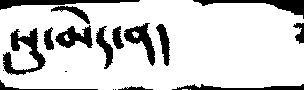སུ་མེད་ན།
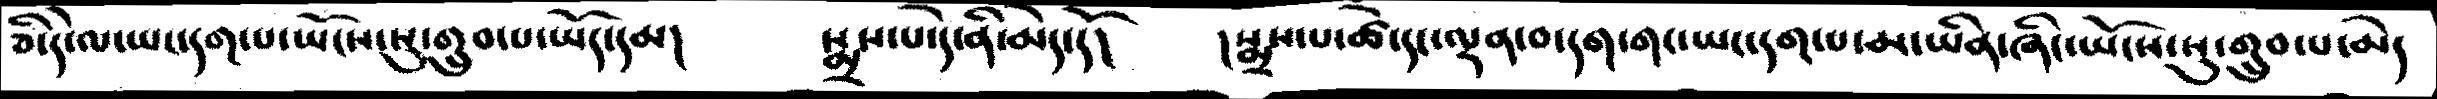ཅི་དེ་ལ་ཡང་དག་པ་ཡོངས་སུ་གྲུབ་པ་ཡོད་དམ།       སྨྲས་པ་དེ་ནི་མེད་དོ།    །སྨྲས་པ་ཚེ་དང་ལྡན་བ་དག་གང་ཡང་དག་པ་མ་ཡིན་ཞིང་ཡོངས་སུ་གྲུབ་པ་མེད
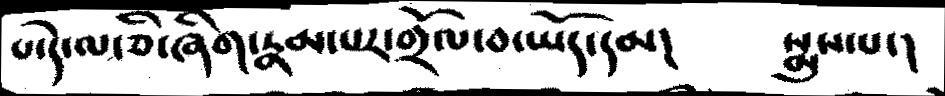པ་དེ་ལ་ཅི་ཞིག་རྣམ་པར་གྲོལ་བ་ཡོད་དམ།  སྨྲས་པ་།
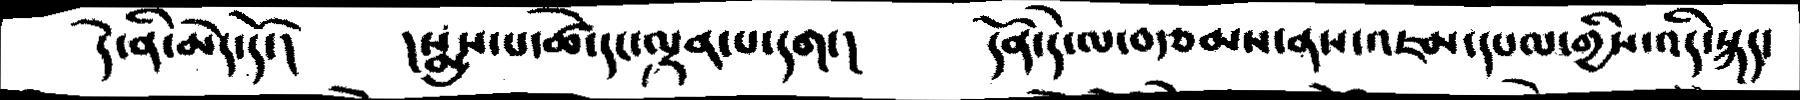དེ་ནི་མེད་དོ་།  །སྨྲས་པ་ཚེ་དང་ལྡན་པ་དག་།   དོན་དེ་ལ་བརྩམས་ནས་འཇམ་དཔལ་གྱིས་འདི་སྐད་
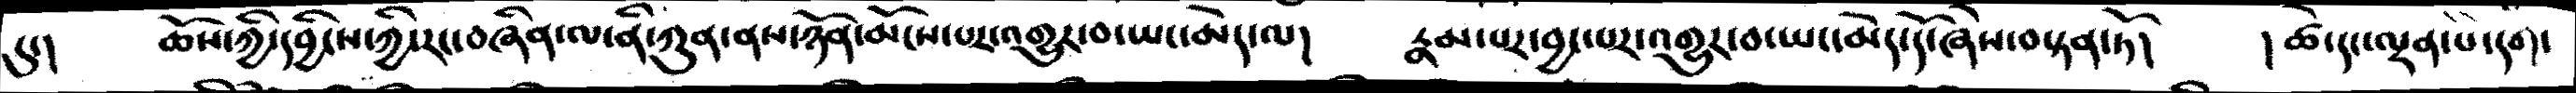དུ་།    ཆོས་ཀྱི་དབྱིངས་ཀྱི་རང་བཞིན་ལ་ནི་ཀུན་ནས་ཉོན་མོངས་པར་འགྱུར་བ་ཡང་མེད་ལ།    རྣམ་པར་བྱང་པར་འགྱུར་བ་ཡང་མེད་དོ་ཞེས་བསྟན་ཏོ།     །ཚེ་དང་ལྡན་པ་དག་
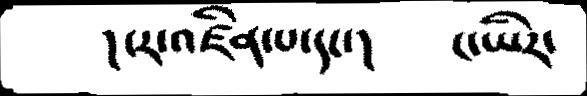། ངར་འཛིན་པ་དང་།   ང་ཡིར་
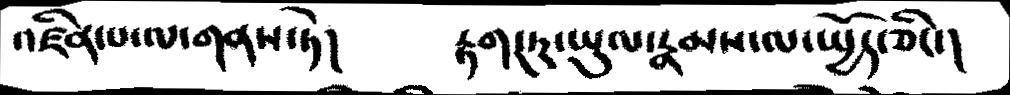འཛིན་པ་ལ་གནས་ཏེ།      རྟག་ཏུ་ཡུལ་རྣམས་ལ་ཡྱོད་ཅིང།
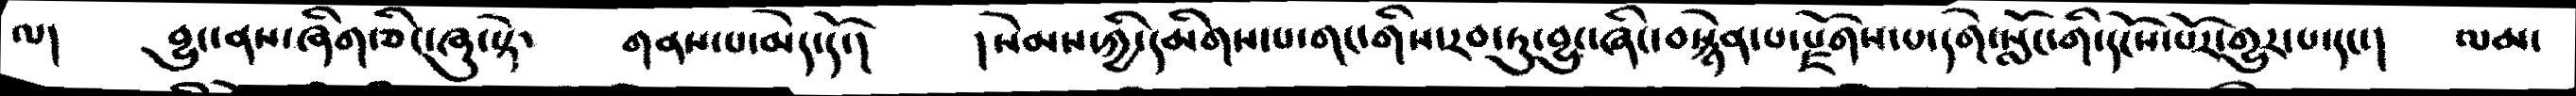ལ།    བྱུང་ནས་ཞིག་ཅིང་ཞུ་སྟར་     གནས་པ་མེད་དོ་།      །སེམས་ཀྱི་དམིགས་པ་གང་གིས་རབ་ཏུ་བྱུང་ཞིང་བསྙེན་པ་སྫོགས་པ་དགེ་སློང་གི་དངོས་པོར་གྱུར་པ་དང་། ལམ་
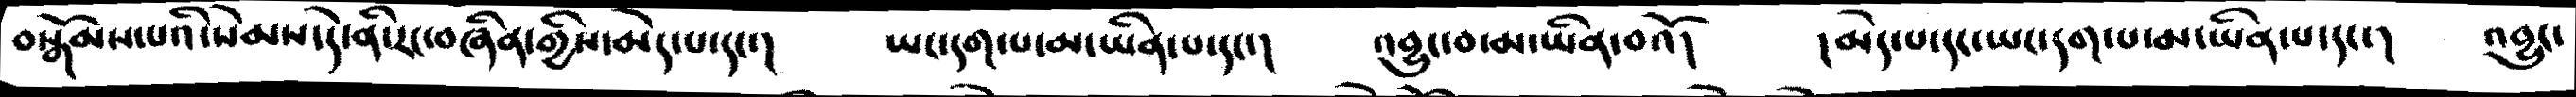བསྒོམས་པའི་སེམས་དེ་ནི་རང་བཞིན་གྱིས་མེད་པ་དང་།   ཡང་དག་པ་མ་ཡིན་པ་དང་།    འབྱུང་བ་མ་ཡིན་བའོ།     །མེད་པ་དང་ཡང་དག་པ་མ་ཡིན་པ་དང་།    འབྱུང་
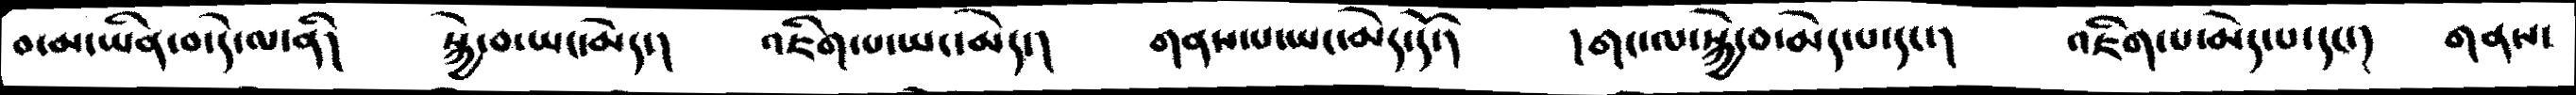བ་མ་ཡིན་བ་དེ་ལ་ནི།   སྐྱེ་བ་ཡང་མེད་།  འཇིག་པ་ཡང་མེད་།  གནས་པ་ཡང་མེད་དོ་།  །གང་ལ་སྐྱེ་བ་མེད་པ་དང་།  འཇིག་པ་མེད་པ་དང་།  གནས་
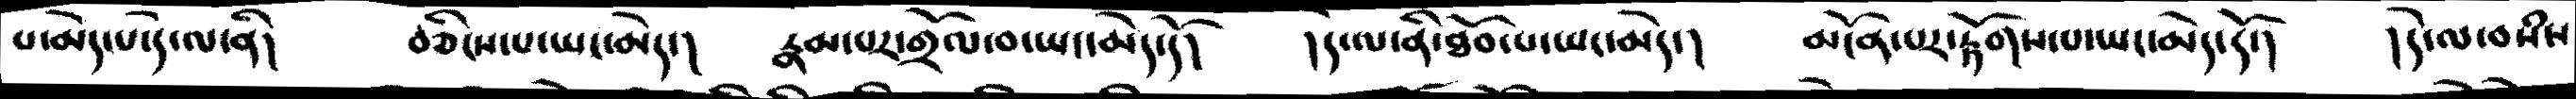པ་མེད་པ་དེ་ལ་ནི།  བཅིངས་པ་ཡང་མེད་།  རྣམ་པར་གྲོལ་བ་ཡང་མེད་དོ།  །དེ་ལ་ནི་ཐོབ་པ་ཡང་མེད་།  མངོན་པར་རྟོགས་པ་ཡང་མེད་དོ་།   །དེ་ལ་བསཾས
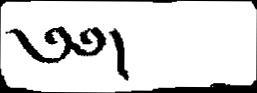༄༅།
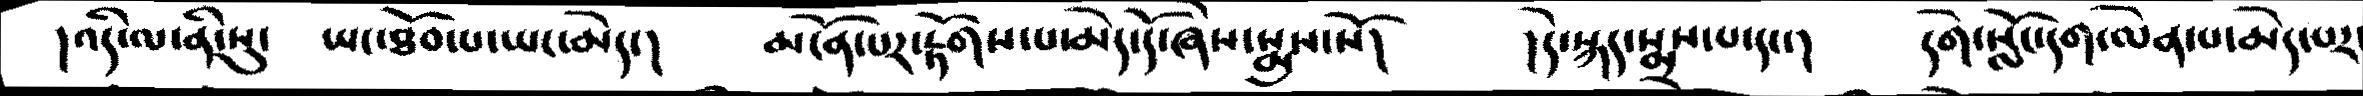།འདི་ལ་ནི་སུ་   ཡང་ཐོབ་པ་ཡང་མེད་།  མངོན་པར་རྟོགས་པ་མེད་དོ་ཞེས་སྨྲས་སོ།  །དེ་སྐད་སྨྲས་པ་དང་།   དགེ་སློང་དག་ལེན་པ་མེད་པར་
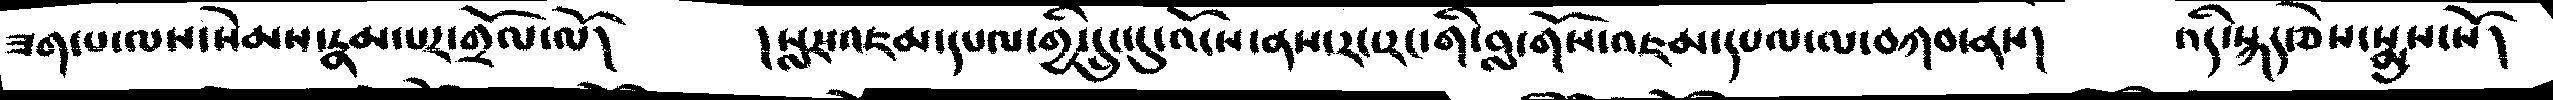ཟག་པ་ལས་སེམས་རྣམ་པར་གྲོལ་ལོ།  །སླར་འཇམ་དཔལ་གྱི་དྲུང་དུ་འོངས་ནས་རང་རང་གི་བླ་གོས་འཇམ་དཔལ་ལ་བཀབ་ནས།   འདོ་སྐད་ཅེས་སྨྲས་སོ།
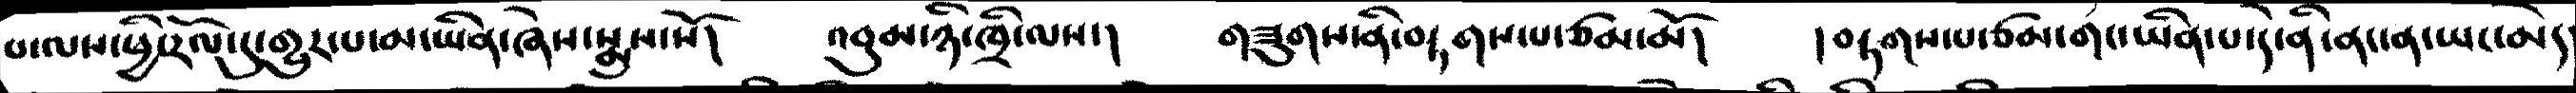པ་ལས་ཕྱི་རོལ་དུ་གྱུར་པ་མ་ཡིན་ཞེས་སྨྲས་སོ།  འབུམ་ཉི་ཁྲི་ལས་།  གཟུགས་ནི་བརྟགས་པ་ཙམ་མོ།  །བརྟགས་པ་ཙམ་གང་ཡིན་པ་དེ་ནི་ནང་ན་ཡང་མེད
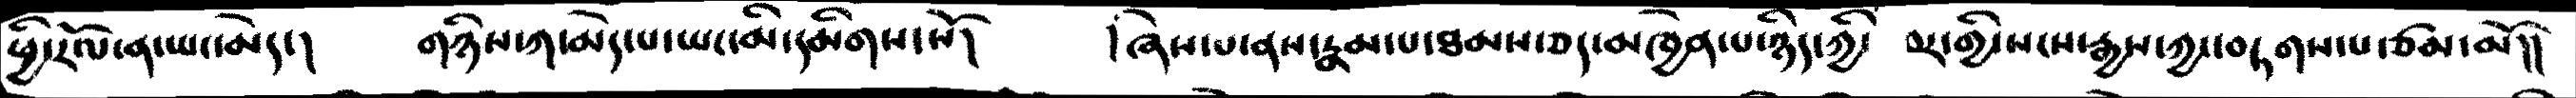ཕྱི་རོལ་ན་ཡང་མེད་།   གཉིས་ཀ་མེད་པ་ཡང་མི་དམིགས་སོ།  །ཞེས་པ་ནས་རྣམ་པ་མས་ཅད་མཁྱེན་པ་ཉིད་ཀྱི་  བར་གྱི་སངས་རྒྱས་ཀྱང་བཏགས་པ་ཙམ་མོ།།
